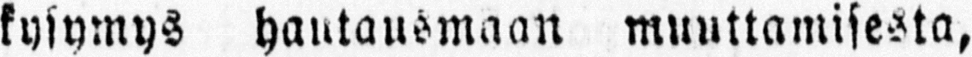kysymys hautausmaan muuttamisesta,
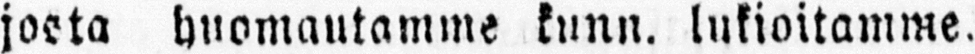josta huomautamme kunn. lukioitamme.
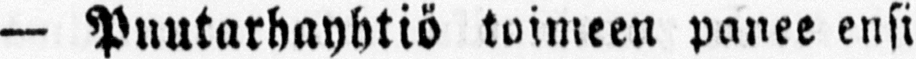— Puutarhayhtiö toimeen panee ensi
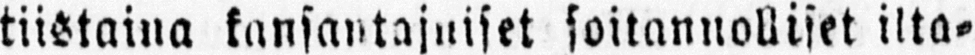tiistaina kansantajuiset soitannolliset ilta-
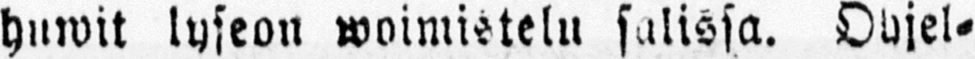huwit lyseon woimistelu salissa. Ohjel-
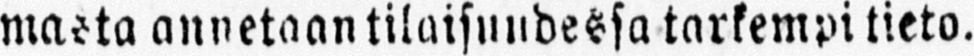masta annetaan tilaisuudessa tarkempi tieto.
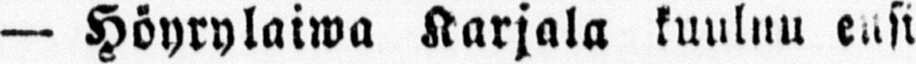— Höyrylaiwa Karjala kuuluu ensi
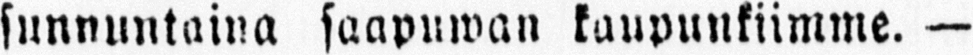sunnuntaina saapuwan kaupunkiimme.—
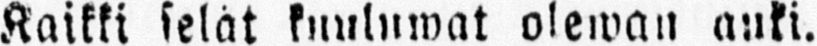Kaikki selät kuuluwat olewan auki.
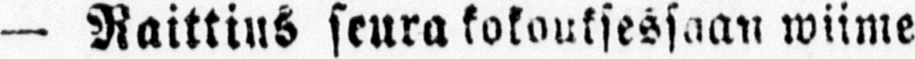— Raittius seura kokouksessaan wiime
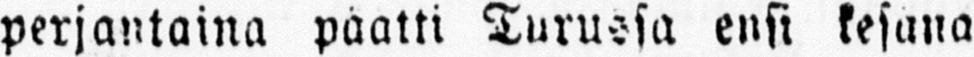perjantaina paatti Turussa ensi kesänä
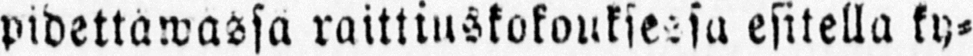pidettäwässä raittiuskokouksessa esitella ky-
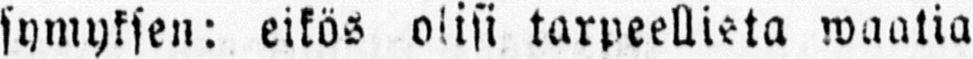symyksen: eikös olisi tarpeellista waatia
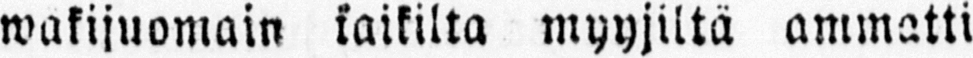wäkijuomain kaikilta myyjiltä ammatti
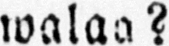walaa?
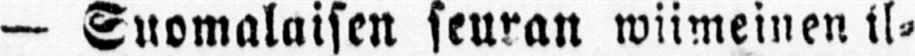— Suomalaisen seuran wiimeinen il-
